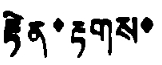རྟེན་རྟགས་
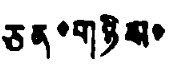ཅན་གཉིས་
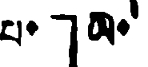པ་」ཡི་
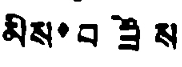མིས་བཟོས
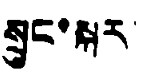སྲུང་སྐར་
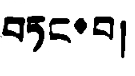བཏང་བ།
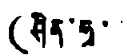(ཤིན་ཧྭ་
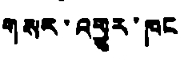གསར་འགྱུར་ཁང
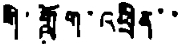གི་གློག་འཕྲིན་་
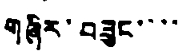གཞིར་བཟུང་་་་
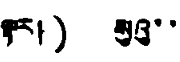ལྟར།) སུའུ་་
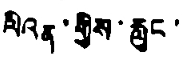ལིའན་གྱིས་རླུང་
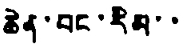ཆེན་བང་རིམ་་
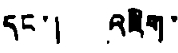དང་། འཇིག
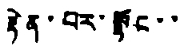རྟེན་པར་སྟོང་་
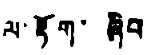ལ་རྟོག་ཞིབ
